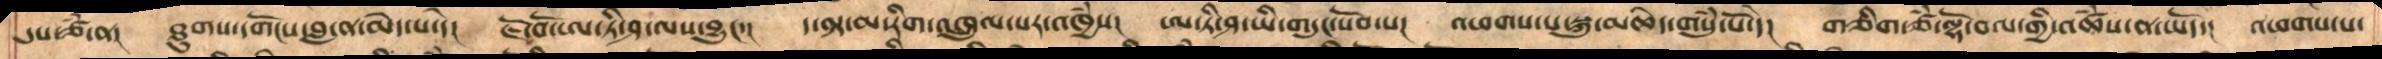དུས་ཙཾ་ན།  ཐུགས་དགོངས་བླ་ན་མེད་པ་དེ།  ཇོ་བོ་ཨ་ཏི་ཤ་ལ་བྱུང་། ད་ལྟ་མ་རིག་འཁྲུལ་པར་འཁྱཾས།  ཨ་ཏི་ཤ་ཡི་གདུང་སོབ་པ།  འཕགས་པ་སྐུ་མཆེད་གསུཾ་པོ་དེ། གཅིག་ཙཾ་ལྷོ་བལ་གྱི་མཚཾས་ན་ཡོད། འཕགས་པ་
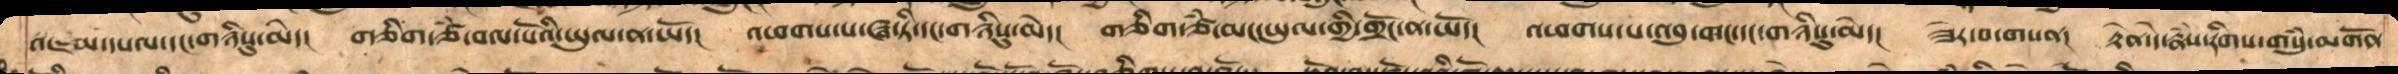འཇམ་དཔལ་དང་གཉིསུ་མེད།  གཅིག་ཙྃ་བལ་པོའི་ཡུལ་ན་ཡོད། འཕགས་པ་ཝ་ཏི་དང་གཉིསུ་མེད།  གཅིག་ཙྃ་མང་ཡུལ་གྱི་གྲོང་ན་ཡོད།  འཕགས་པ་འབུ་གང་དང་གཉིསུ་མེད།   ཟེར་བ་གསན།  རྟེན་དེ་རྣྃས་རིགས་གསུྃ་མགོན
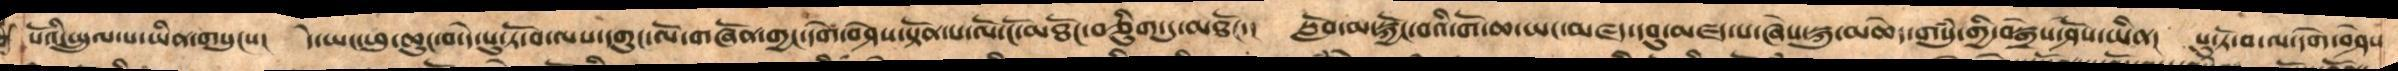པོའི་སྤྲུལ་པ་ཡིན་གསུངས།   དེ་ཡང་ཕུ་ཆུང་བ་དེ་པུ་ཏོ་བ་ལས་དགུང་ལོ་གཞོན་གྱང་དགེ་བཤེས་སྟོན་པ་ལོ་ངོ་མཐོང་བཅིུག་དུ་མཐོང་།   སློབ་མ་སྐྱོང་བའི་གོ་ཆ་ཡང་མཛད་དབུ་མཛད་པ་ཞེས་སྐུ་མཆེད་གསུཾ་གྱི་བསྒྲེས་ཤོས་ཡིན།   པུ་ཏོ་བ་ལ་དགེ་བཤེས
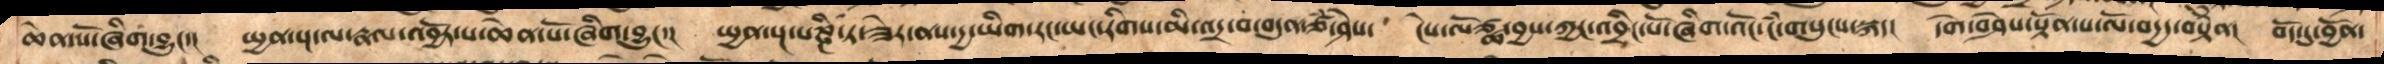ཆེན་པོ་ཞིག་བྱུང་།   སྤྱན་སྔ་ལ་རྣལ་འབྱོར་པ་ཆེན་པོ་ཞིག་བྱུང་།   སྤྱན་སྔ་པཎྜི་ཏ་ཟེར་ནས་དྱ་ཡིག་རང་ཡང་རིགས་མི་འདྲ་བ་བདུན་ཙཾ་ཤེས།    ངེས་ལོཙྪ་བྱས་ཀྱང་འབྲིང་པོཞིག་འོང་ངཾ་གསུང་སྐད།   དགེ་བཤེས་སྟོན་པ་ལོ་བདྱད་བསྟེན།  བོད་དུ་བྱོན་
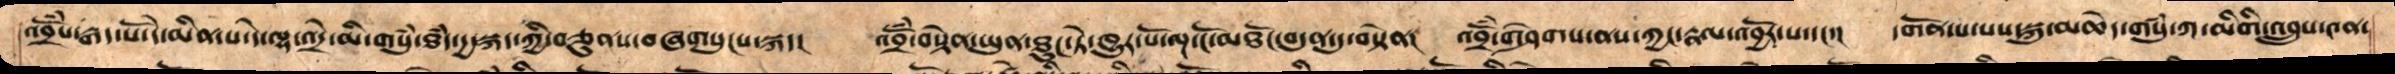འབྲོཾས་རྒད་པོ་དེ་མིན་པ་དེ་ལྷ་འདྲེ་མི་གསུཾ་ཐཾད་དྱ་སྐད་ཀྱི་བཅུནས་བཞགསུངས་སྐད།  འབྲོཾ་བསྟེན་ཡུན་ཐུང་ཏེ་ཁྱུར་པོ་ལྔ་ངོ་མཐོང་བདུན་དུ་བསྟེན།   འབྲོཾ་གཤེགས་ནས་ཀྱང་རྣལ་འབྱོར་པ་དང་།  དགོན་པ་པས་སྐུ་མཆེད་གསུཾ་ཀ་མིགི་འབྲུས་༤ན་
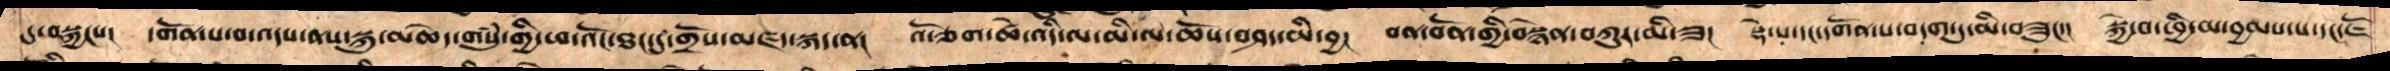དུ་བསྐྱངས།  དགོན་པ་བ་འདས་ནས་སྐུ་མཆེད་གསུཾ་གྱི་ཕ་འོང་ཐང་དུ་གྲོས་མཛད་སྐད་ན།   འོ་ཅག་ཚེ་འདི་ལ་མི་ལ་ཆོས་བཤད་མི་བྱ།  བན་བོན་གྱི་བསྙེན་བཀུར་མི་ཟ།  སྡེ་པ་དང་དགོན་པ་བདག་ཏུ་མི་བཟུང་།  སྐྱེ་བ་ཕྱི་མ་བྱམས་པ་དང་ཇོ
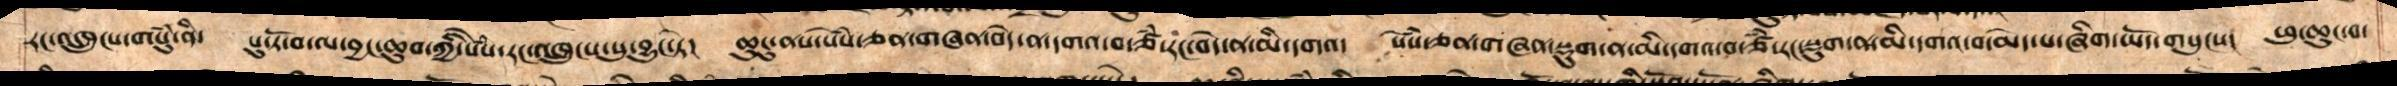རང་འཁྲུངས་གསུཾ་ནི།   པུ་ཏོ་བ་ལ་བྱང་ཆུབ་ཀྱི་སེཾས་རང་འཁྲུངས་སུ་བྱུང་ཏེ།   ཆུངུ་ནས་སེཾས་ཅན་གཞན་བདེ་ན་དགའ་བ་ཙཾ་རང་བདེ་ན་མི་དགའ།  སེཾས་ཅན་གཞན་སྡུག་ན་མི་དགའ་བ་ཙཾ་རང་སྡུག་ན་མི་དགའ་བ་མེད་པ་ཞིག་ཡོད་གསུངས། ཕུ་ཆུང་བ་
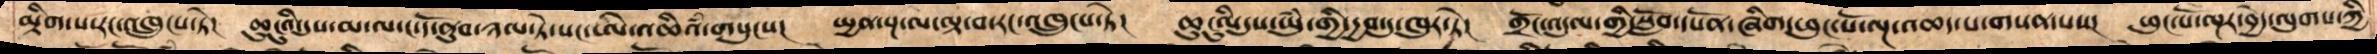མྲིག་པ་རང་འཁྲུངས་ཏེ།   ཆུངུའི་དུས་མ་ལ་ང་དོ་ནུབ་ཉལ་ཏེ་སང་ཨེ་འཆིའཾ་གསུངས།   སྤྱན་སྔ་ལ་ལྟ་བ་རང་འཁྲུངས་ཏེ།  ཆུངུའི་དུས་ཡུཾ་གྱི་དྱབ་དུ་ཁུར་ཏེ།    གྲོང་འདུལ་གྱི་སློབ་དཔོན་ཞིག་ཕུང་པོ་ལྔ་འཆད་པ་གསན་པས།   ཕུང་པོ་ལྔར་བྱེད་ལུགས་ཀྱི
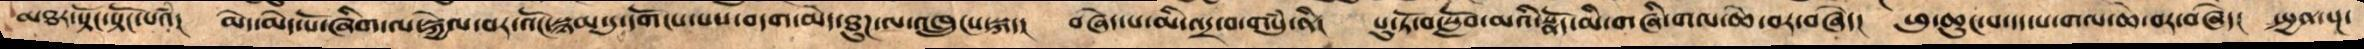མཐར་སྟོང་སྟོང་པའཾ།   མེད་མེད་པོ་ཞིག་ལ་སྐྱེལ་བར་འོང་སྙམ་དུ་དགོངས་པས་བདག་མེད་ཐུཌ་ལ་འཁྲུངས་སྐད།   བཞེད་པ་མི་འདྲ་བ་གསུཾ་ནི།    པུ་ཏོ་བ་སློབ་མའི་སྣོད་མི་གཞི་གལ་ཆེ་བར་བཞེད།   ཕུ་ཆུང་པ་དད་པ་གལ་ཆེ་བར་བཞེད། སྤྱན་སྔ་
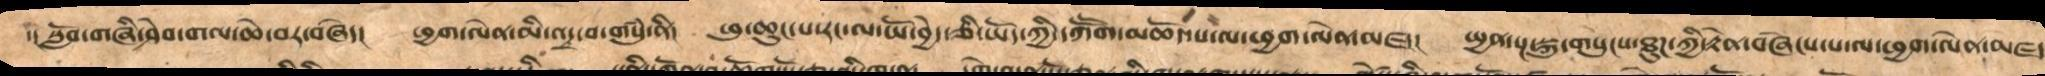་། སློབ་གཞི་ཤེས་གལ་ཆེ་བར་བཞེད།   ཕྱག་ལེན་མི་འདྲ་བ་གསུཾ་ནི།   ཕུ་ཆུང་པ་རང་ལ་ཡོ་བྱད་ཅི་ཡོད་ཀྱི་དཀཽག་མཆོད་པ་ལ་ཕྱག་ལེན་མཛད།  སྤྱན་སྔ་སྐུ་གསུངས་ཐུཌ་ཀྱི་རྟེན་བཞེངས་པ་ལ་ཕྱག་ལེན་མཛད
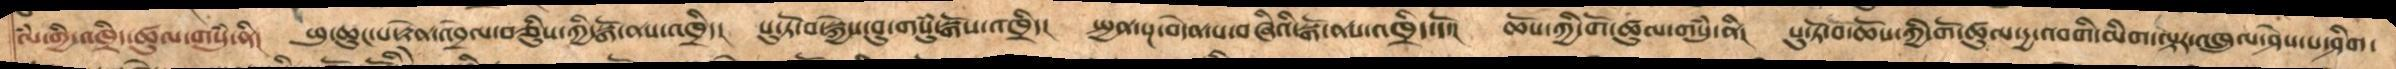ལཾ་གྱི་འཁྲིད་ཚུལ་གསུཾ་ནི།  ཕུ་ཆུང་པ་རྟེནའབྲེལ་བཅིུས་ཀྱི་སྒོ་ནས་འཁྲིད།   པུ་ཏོ་བ་སྐྱེས་བུ་གསུཾ་སྒོས་འཁྲིད།   སྤྱན་སྔ་བདེན་པ་བཞིའི་སྒོ་ནས་འཁྲིད་དོ།   ཆོས་ཀྱི་གོ་ཚུལ་གསུཾ་ནི།  པུ་ཏོ་བ་ཆོས་ཀྱི་གོ་ཚུལ་དྱ་འབགི་མིག་ལྟར་འཁྲུལ་ཤེས་པ་ཤིག་
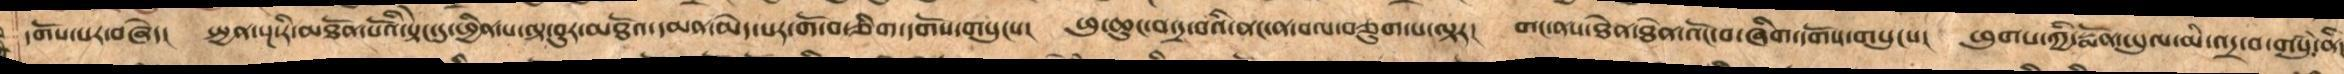དགོས་པར་བཞེད།   སྤྱན་སྔ་རི་མཐོན་པོའི་སྟེང་དུ་ཕྱིན་པ་ལྟ་བུར་མཐོའ་དམན་མེད་པར་གོ་བ་ཅིག་དགོས་གསུངས།   ཕུ་ཆུང་བ་དྲ་བའི་ནང་ན་བལ་བཅུག་པ་ལྟར།   གང་ནས་ཐེན་ཐེན་འོང་བ་ཞིག་དགོས་གསུངས།  ཕུགས་ཀྱི་སྨོན་ཡུལ་མི་འདྲ་བ་གསུཾ་ནི།
